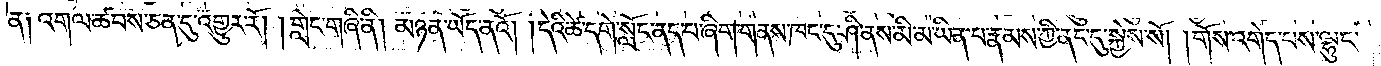ན༑ འགལ་ཚབས་ཅན་དུ་འགྱུར་རོ། །གླེང་གཞི་ནི། མཉན་ཡོད་ནའོ། །དེའི་ཚེ་དགེ་སློང་ནད་པ་ཞིག་གནས་ཁང་དུ་ཤི་ནས་མི་མ་ཡིན་པ་རྣམས་ཀྱི་ནང་དུ་སྐྱེས་སོ། །གོས་འགེད་པས་ལྷུང་
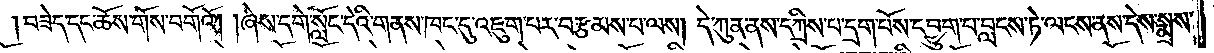བཟེད་དང་ཆོས་གོས་བགོའོ། །ཞེས་དགེ་སློང་དེའི་གནས་ཁང་དུ་འཇུག་པར་བརྩམས་པ་ལས། དེ་ཀུན་ནས་དཀྲིས་པ་དྲག་པོས་དབྱུག་པ་བླངས་ཏེ་ལངས་ནས་དེས་སྨྲས་
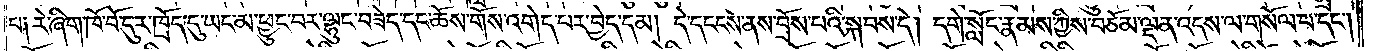པ༑ རེ་ཞིག་ཁོ་བོ་དུར་ཁྲོད་དུ་ཡང་མ་ཕྱུང་བར་ལྷུང་བཟེད་དང་ཆོས་གོས་འགེད་པར་བྱེད་དམ། དེ་དངངས་ནས་བྲོས་པའི་སྐབས་དེ། དགེ་སློང་རྣམས་ཀྱིས་བཅོམ་ལྡན་འདས་ལ་གསོལ་པ་དང༌།
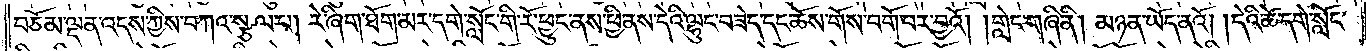བཅོམ་ལྡན་འདས་ཀྱིས་བཀའ་སྩལ་པ། རེ་ཞིག་ཐོག་མར་དགེ་སློང་གི་རོ་ཕྱུང་ནས་ཕྱི་ནས་དེའི་ལྷུང་བཟེད་དང་ཆོས་གོས་བགོ་བར་བྱའོ། །གླེང་གཞི་ནི། མཉན་ཡོད་ནའོ། །དེའི་ཚེ་དགེ་སློང་
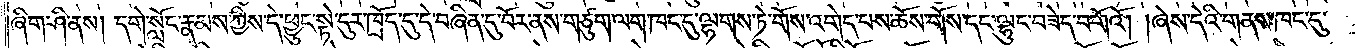ཞིག་ཤི་ནས། དགེ་སློང་རྣམས་ཀྱིས་དེ་ཕྱུང་སྟེ་དུར་ཁྲོད་དུ་དེ་བཞིན་དུ་བོར་ནས་གཙུག་ལག་ཁང་དུ་ལྷགས་ཏེ་གོས་འགེད་པས་ཆོས་གོས་དང་ལྷུང་བཟེད་བགོའོ། །ཞེས་དེའི་གནས་ཁང་དུ་
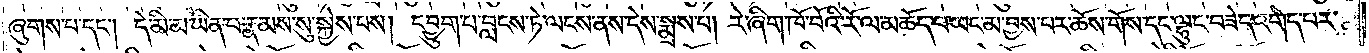ཞུགས་པ་དང༌། དེ་མི་མ་ཡིན་པ་རྣམས་སུ་སྐྱེས་པས། དབྱུག་པ་བླངས་ཏེ་ལངས་ནས་དེས་སྨྲས་པ། རེ་ཞིག་ཁོ་བོའི་རོ་ལ་མཆོད་པ་ཡང་མ་བྱས་པར་ཆོས་གོས་དང་ལྷུང་བཟེད་འགེད་པར་
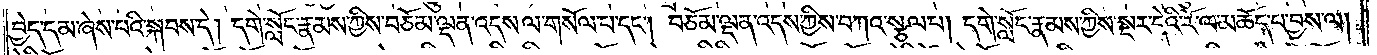བྱེད་དམ་ཞེས་པའི་སྐབས་དེ། དགེ་སློང་རྣམས་ཀྱིས་བཅོམ་ལྡན་འདས་ལ་གསོལ་པ་དང༌། བཅོམ་ལྡན་འདས་ཀྱིས་བཀའ་སྩལ་པ། དགེ་སློང་རྣམས་ཀྱིས་སྔར་དེའི་རོ་ལ་མཆོད་པ་བྱས་ལ།
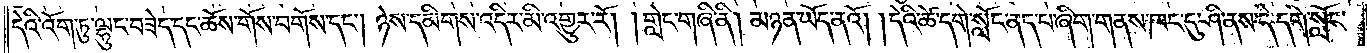དེའི་འོག་ཏུ་ལྷུང་བཟེད་དང་ཆོས་གོས་བགོས་དང༌། ཉེས་དམིགས་འདིར་མི་འགྱུར་རོ། །གླེང་གཞི་ནི། མཉན་ཡོད་ནའོ། །དེའི་ཚེ་དགེ་སློང་ནད་པ་ཞིག་གནས་ཁང་དུ་ཤི་ནས་དེ་དགེ་སློང་
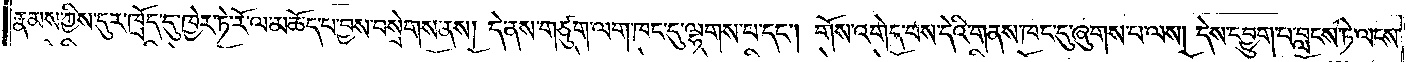རྣམས་ཀྱིས་དུར་ཁྲོད་དུ་ཁྱར་ཏེ་རོ་ལ་མཆོད་པ་བྱས་བསྲེགས་ནས། དེ་ནས་གཙུག་ལག་ཁང་དུ་ལྷགས་པ་དང༌། གོས་འགེད་པས་དེའི་གནས་ཁང་དུ་ཞུགས་པ་ལས། དེས་དབྱུག་པ་བླངས་ཏེ་ལངས་
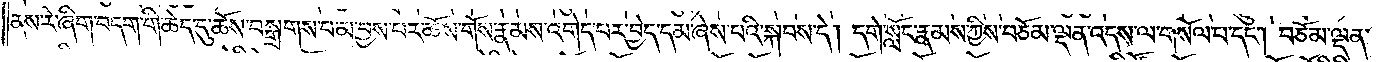ནས་རེ་ཞིག་བདག་གི་ཆེད་དུ་ཆོས་བསྒྲགས་པ་མ་བྱས་པར་ཆོས་གོས་རྣམས་འགེད་པར་བྱེད་དམ་ཞེས་པའི་སྐབས་དེ། དགེ་སློང་རྣམས་ཀྱིས་བཅོམ་ལྡན་འདས་ལ་གསོལ་པ་དང༌། བཅོམ་ལྡན་
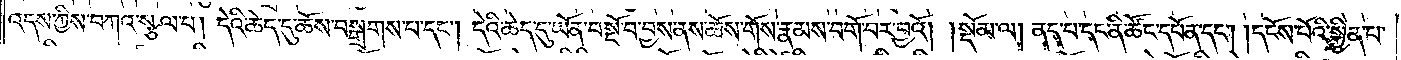འདས་ཀྱིས་བཀའ་སྩལ་པ། དེའི་ཆེད་དུ་ཆོས་བསྒྲགས་པ་དང༌། དེའི་ཆེད་དུ་ཡོན་བསྔོ་བ་བྱས་ནས་ཆོས་གོས་རྣམས་བགོ་བར་བྱའོ།    །སྡོམ་ལ། ནད་པ་དང་ནི་ཚོང་དཔོན་དང༌། །དངོས་པོའི་སྐྱིན་པ་
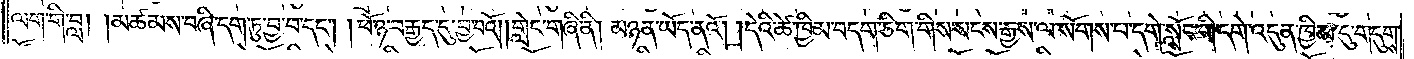ལག་གི་བླ། །མཚམས་བཞི་དག་ཏུ་བྱ་བ་དང༌། །ཕོ་ཉ་བརྒྱད་དུ་བྱ་བའོ། །གླེང་གཞི་ནི། མཉན་ཡོད་ནའོ། །དེའི་ཚེ་ཁྱིམ་བདག་ཅིག་གིས་སངས་རྒྱས་ལ་སོགས་པ་དགེ་སློང་གི་དགེ་འདུན་ཁྱིམ་དུ་གདུགས་
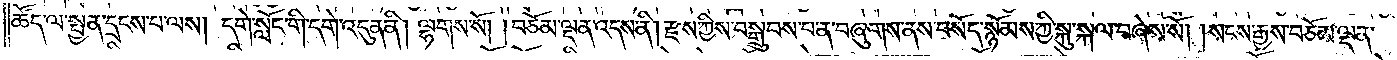ཚོད་ལ་སྤྱན་དྲངས་པ་ལས། དགེ་སློང་གི་དགེ་འདུན་ནི། ལྷགས་སོ། །བཅོམ་ལྡན་འདས་ནི། རྫས་ཀྱིས་བསྒྲུབས་པ་ན་བཞུགས་ནས་བསོད་སྙོམས་ཀྱི་སྐུ་སྐལ་བཞེས་སོ། །སངས་རྒྱས་བཅོམ་ལྡན་
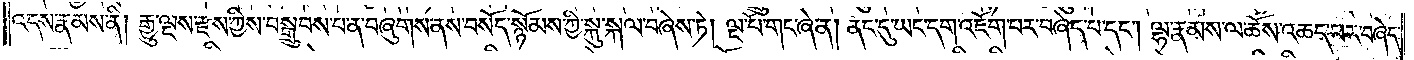འདས་རྣམས་ནི། རྒྱུ་ལྔས་རྫས་ཀྱིས་བསྒྲུབས་པ་ན་བཞུགས་ནས་བསོད་སྙོམས་ཀྱི་སྐུ་སྐལ་བཞེས་ཏེ། ལྔ་པོ་གང་ཞེ་ན། ནང་དུ་ཡང་དག་འཇོག་པར་བཞེད་པ་དང༌། ལྷ་རྣམས་ལ་ཆོས་འཆད་པར་བཞེད་
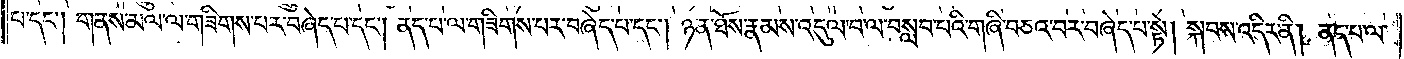པ་དང༌། གནས་མལ་ལ་གཟིགས་པར་བཞེད་པ་དང༌། ནད་པ་ལ་གཟིགས་པར་བཞེད་པ་དང༌། ཉན་ཐོས་རྣམས་འདུལ་བ་ལ་བསླབ་པའི་གཞི་བཅའ་བར་བཞེད་པ་སྟེ། སྐབས་འདིར་ནི། ནད་པ་ལ་
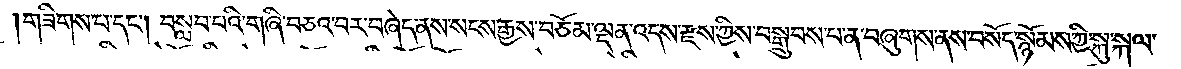།གཟིགས་པ་དང༌། བསླབ་པའི་གཞི་བཅའ་བར་བཞེད་ནས་སངས་རྒྱས་བཅོམ་ལྡན་འདས་རྫས་ཀྱིས་བསྒྲུབས་པ་ན་བཞུགས་ནས་བསོད་སྙོམས་ཀྱི་སྐུ་སྐལ་
